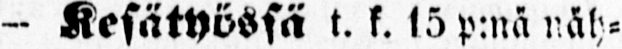- Kesätyössä t. k. 15 p:nä näh-
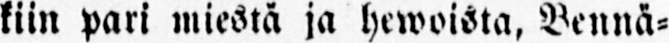tiin pari miestä ja hewoista, Bennä-
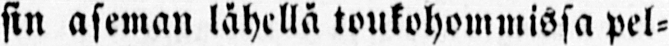sin aseman lähellä toukohommissa pel-
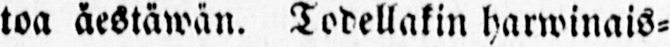toa äestäwän. Todellakin harwinais-
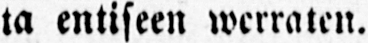ta entiseen werraten.
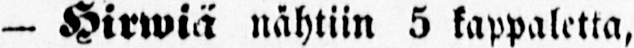— Hirwiä nähtiin 5 kappaletta,
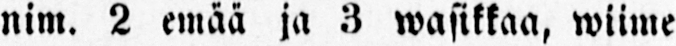nim. 2 emää ja 3 wasikkaa, wiime
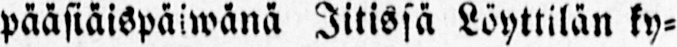pääsiäispäiwänä Iitissä Löyttilän ky-
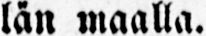län maalla.
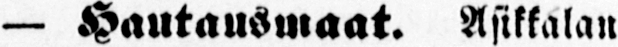— Hautausmaat. Asikkalan
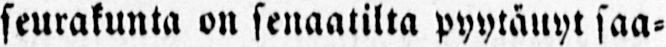seurakunta on senaatilta pyytänyt saa-
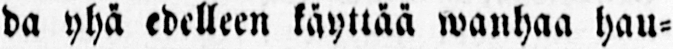da yhä edelleen käyttää wanhaa hau-
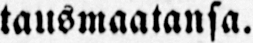tausmaatansa.
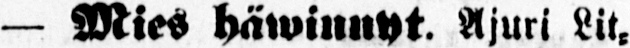— Mies häwinnyt Ajuri Lit-
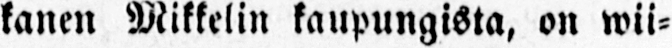kanen Mikkelin kaupungista, on wii-
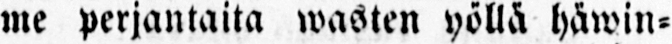me perjantaita wasten yöllä häwin-
